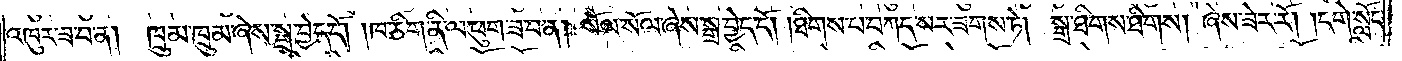འཁུར་ཟ་བ་ན། ཁྲུམ་ཁྲུམ་ཞེས་སྒྲ་བྱེད་དོ། །ཁ་ཅིག་ནི་ལ་ཕུག་ཟ་བ་ན། སོལ་སོལ་ཞེས་སྒྲ་བྱེད་དོ། །ཐིགས་པ་བཀད་སར་ཟགས་ཏེ། སྒྲ་ཐིགས་ཐིགས། ཞེས་ཟེར་རོ། །དགེ་སློང་
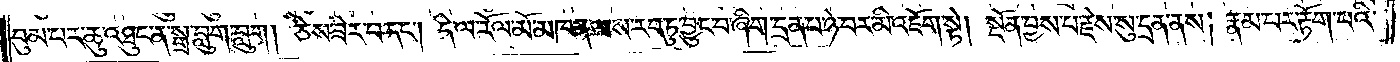བུམ་པར་ཆུ་འཐུང་ན་སྒྲ་བླུག་བླུག། ཅེས་ཟེར་བ་དང༌། དེ་ལ་རོལ་མོ་མཁན་ལས་རབ་ཏུ་བྱུང་བ་ཞིག་དྲན་པ་ཉེ་བར་མི་འཇོག་སྟེ། སྔོན་བྱས་པ་རྗེས་སུ་དྲན་ནས། རྣམ་པར་རྟོག་པའི་
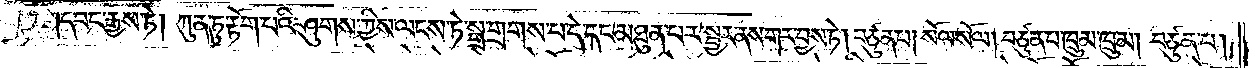དབང་རྒྱས་ཏེ། ཀུན་ཏུ་རྟོག་པའི་ཤུགས་ཀྱིས་ལངས་ཏེ་སྒྲ་གྲགས་པ་དེ་དང་མཐུན་པར་སྦྱར་ནས་གར་བྱས་ཏེ། བཙུན་པ། སོལ་སོལ། བཙུན་པ་ཁྲུམ་ཁྲུམ། བཙུན་པ།
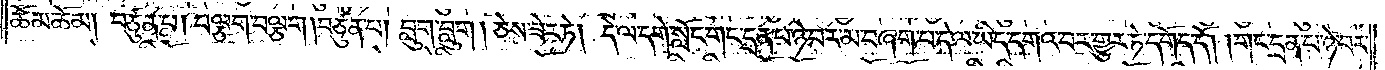ཆོམ་ཆོམ། བཙུན་པ། བལྕག་བལྕག །བཙུན་པ། བླུག་བླུག །ཅེས་ཟེར་ཏེ། དེ་ལ་དགེ་སློང་གང་དྲན་པ་ཉེ་བར་མ་བཞག་པ་དེ་ལ་ཡིད་དགའ་བར་གྱུར་ཏེ་དགོད་དོ། །གང་དྲན་པ་ཉེ་བར་
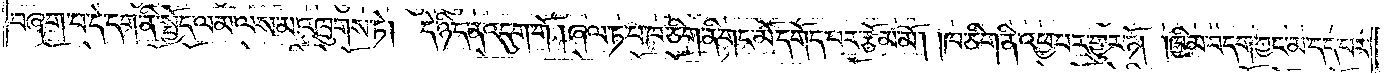བཞག་པ་དེ་དག་ནི་སྤྱོད་ལམ་ལས་མ་འཁྲུགས་ཏེ། དེ་ཉིད་ན་འདུག་གོ །ཞལ་ཏ་པ་ཁ་ཅིག་ནི་གད་མོ་དགོད་པར་རྩོམ་མོ། །ཁ་ཅིག་ནི་འཕྱ་བར་གྱུར་ཏོ། །ཁྱིམ་བདག་ཀྱང་མ་དད་པར་
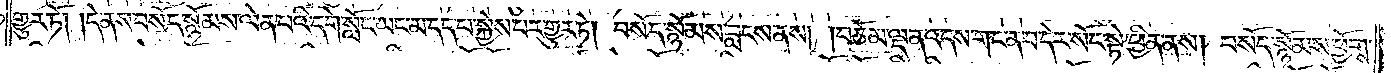གྱུར་ཏོ། །དེ་ནས་བསོད་སྙོམས་ལེན་པའི་དགེ་སློང་ཡང་མ་དད་པ་སྐྱེས་པར་གྱུར་ཏེ། བསོད་སྙོམས་བླངས་ནས། །བཅོམ་ལྡན་འདས་གང་ན་བ་དེར་སོང་སྟེ་ཕྱིན་ནས། བསོད་སྙོམས་ཕྱོགས་
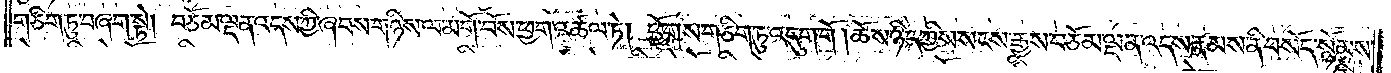གཅིག་ཏུ་བཞག་སྟེ། བཅོམ་ལྡན་འདས་ཀྱི་ཞབས་གཉིས་ལ་མགོ་བོས་ཕྱག་འཚལ་ཏེ། ཕྱོགས་གཅིག་ཏུ་འདུག་གོ །ཆོས་ཉིད་ཀྱིས་སངས་རྒྱས་བཅོམ་ལྡན་འདས་རྣམས་ནི་བསོད་སྙོམས་
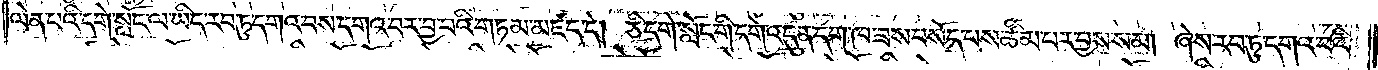ལེན་པའི་དགེ་སློང་ལ་ཡིད་རབ་ཏུ་དགའ་བས་དགའ་བར་བྱ་བའི་གཏམ་མཛད་དེ། ཅི་དགེ་སློང་གི་དགེ་འདུན་དག་ཁ་ཟས་བསོད་པས་ཚིམ་པར་བྱས་སམ། ཞེས་རབ་ཏུ་དགའ་བའི་
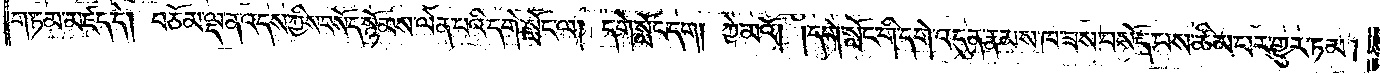གཏམ་མཛད་དེ། བཅོམ་ལྡན་འདས་ཀྱིས་བསོད་སྙོམས་ལེན་པའི་དགེ་སློང་ལ། དགེ་སློང་དག། ཀྱེ་མའོ། །དགེ་སློང་གི་དགེ་འདུན་རྣམས་ཁ་ཟས་བསོད་པས་ཚིམ་པར་གྱུར་ཏམ།
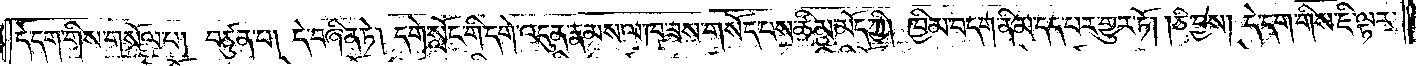དེ་དག་གིས་གསོལ་པ། བཙུན་པ། དེ་བཞིན་ཏེ། དགེ་སློང་གི་དགེ་འདུན་རྣམས་ལ་ཁ་ཟས་གསོད་པས་ཚིམ་མོད་ཀྱི། ཁྱིམ་བདག་ནི་མ་དད་པར་གྱུར་ཏོ། །ཅི་བྱས། དེ་དག་གིས་ཇི་ལྟར་
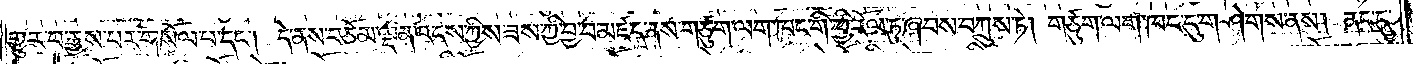གྱུར་པ་རྒྱས་པར་གསོལ་པ་དང༌། དེ་ནས་བཅོམ་ལྡན་འདས་ཀྱིས་ཟས་ཀྱི་བྱ་བ་མཛད་ནས་གཙུག་ལག་ཁང་གི་ཕྱི་རོལ་ཏུ་ཞབས་བཀྲུས་ཏེ། གཙུག་ལག་ཁང་དུ་གཤེགས་ནས། ནང་དུ་
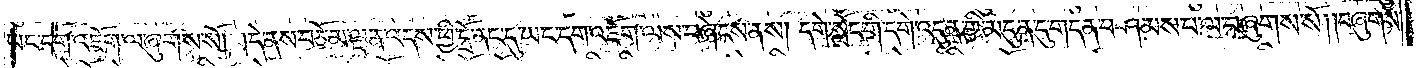ཡང་དག་འཇོག་ལ་ཞུགས་སོ། །དེ་ནས་བཅོམ་ལྡན་འདས་ཕྱི་དྲོ་ནང་དུ་ཡང་དག་འཇོག་ལས་བཞེངས་ནས། དགེ་སློང་གི་དགེ་འདུན་གྱི་མདུན་དུ་གདན་བཤམས་པ་ལ་བཞུགས་སོ། །བཞུགས་
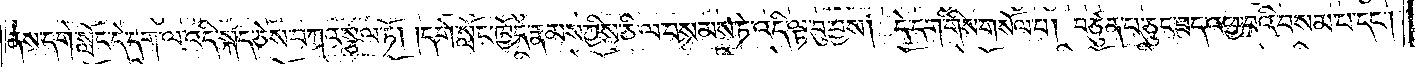ནས་དགེ་སློང་དེ་དག་ལ་འདི་སྐད་ཅེས་བཀའ་སྩལ་ཏོ། །དགེ་སློང་ཁྱོད་རྣམས་ཀྱིས་ཅི་ལ་བསམས་ཏེ་འདི་ལྟ་བུ་བྱས། དེ་དག་གིས་གསོལ་པ། བཙུན་པ་ཅུང་ཟད་འཕྱ་བའི་བསམ་པ་དང༌།
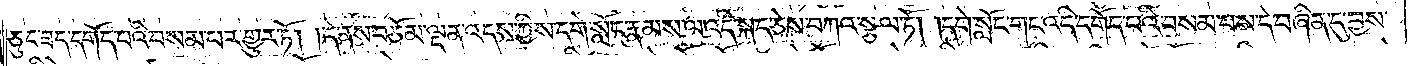ཅུང་ཟད་དགོད་པའི་བསམ་པར་གྱུར་ཏོ། །དེ་ནས་བཅོམ་ལྡན་འདས་ཀྱིས་དགེ་སློང་རྣམས་ལ་འདི་སྐད་ཅེས་བཀའ་སྩལ་ཏོ། །དགེ་སློང་གང་འདི་དགོད་པའི་བསམ་པས་དེ་བཞིན་དུ་བྱས་
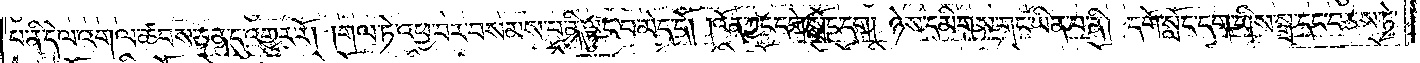པ་ནི་དེ་ལ་འགལ་ཚབས་ཅན་དུ་འགྱུར་རོ། །གལ་ཏེ་འཕྱ་བར་བསམས་པ་ནི་ལྟུང་བ་མེད་དོ། །འོན་ཀྱང་དགེ་སློང་དག། ཉེས་དམིགས་གང་ཡིན་པ་ནི། དགེ་སློང་དག་གིས་སྒྲ་དང་བཅས་ཏེ་
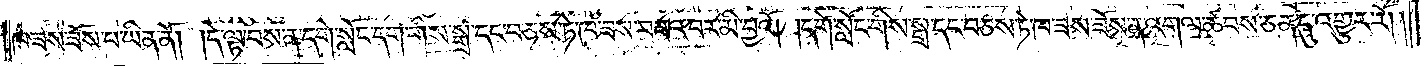ཁ་ཟས་ཟོས་པ་ཡིན་ནོ། དེ་ལྟ་བས་ན་དགེ་སློང་དག་གིས་སྒྲ་དང་བཅས་ཏེ་ཁ་ཟས་བཟའ་བར་མི་བྱའོ། །དགེ་སློང་གིས་སྒྲ་དང་བཅས་ཏེ་ཁ་ཟས་ཟོས་ན་འགལ་ཚབས་ཅན་དུ་འགྱུར་རོ། །
